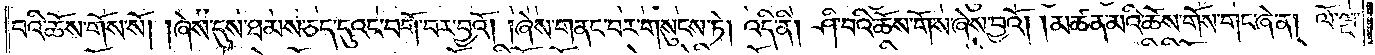བའི་ཆོས་གོས་སོ། །ཞེས་དུས་ཐམས་ཅད་དུའང་བགོ་བར་བྱའོ། །ཞེས་གནང་བར་གསུངས་ཏེ། འདི་ནི། ཤི་བའི་ཆོས་གོས་ཞེས་བྱའོ། །མཚན་མའི་ཆོས་གོས་གང་ཞེ་ན། ལོ་ལྔ་
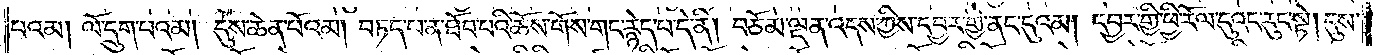པའམ། ལོ་དྲུག་པའམ། དུས་ཆེན་པོའམ། བཏད་པ་ན་ཐོབ་པའི་ཆོས་གོས་གང་རྙེད་པ་དེ་ནི། བཅོམ་ལྡན་འདས་ཀྱིས་དབྱར་གྱི་ནང་དུའམ། དབྱར་གྱི་ཕྱི་རོལ་དུའང་རུང་སྟེ། དུས་
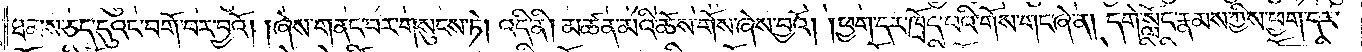ཐམས་ཅད་དུའང་བགོ་བར་བྱའོ། །ཞེས་གནང་བར་གསུངས་ཏེ། འདི་ནི། མཚན་མའི་ཆོས་གོས་ཞེས་བྱའོ། །ཕྱག་དར་ཁྲོད་པའི་གོས་གང་ཞེ་ན། དགེ་སློང་རྣམས་ཀྱིས་ཕྱག་དར་
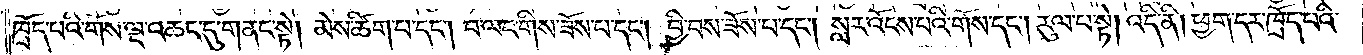ཁྲོད་པའི་གོས་ལྔ་འཆང་དུ་གནང་སྟེ། མེས་ཚིག་པ་དང༌། བ་ལང་གིས་ཟོས་པ་དང༌། བྱི་བས་ཟོས་པ་དང༌། སླར་འོངས་པའི་གོས་དང༌། རུལ་པ་སྟེ། འདི་ནི། ཕྱག་དར་ཁྲོད་པའི་
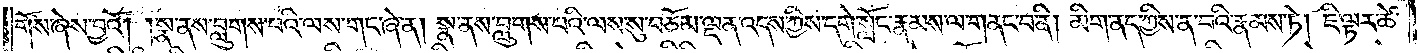གོས་ཞེས་བྱའོ། །སྣ་ནས་བླུགས་པའི་ལས་གང་ཞེ་ན། སྣ་ནས་བླུགས་པའི་ལས་སུ་བཅོམ་ལྡན་འདས་ཀྱིས་དགེ་སློང་རྣམས་ལ་གནང་བ་ནི། མིག་ནད་ཀྱིས་ན་བའི་རྣམས་ཏེ། ཇི་ལྟར་ཚེ་
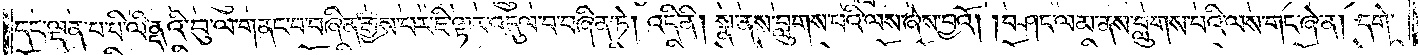དང་ལྡན་པ་པི་ལིནྡའི་བུ་ལ་གནང་བ་བཞིན་རྒྱས་པར་ཇི་ལྟར་འདུལ་བ་བཞིན་ཏེ། འདི་ནི། སྣ་ནས་བླུགས་པའི་ལས་ཞེས་བྱའོ། །བཤང་ལམ་ནས་བླུགས་པའི་ལས་གང་ཞེ་ན། དགེ་
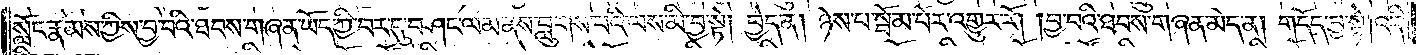སློང་རྣམས་ཀྱིས་བྱ་བའི་ཐབས་གཞན་ཡོད་ཀྱི་བར་དུ་བཤང་ལམ་ནས་བླུགས་པའི་ལས་མི་བྱ་སྟེ། བྱེད་ན། ཉེས་པ་སྦོམ་པོར་འགྱུར་རོ། །བྱ་བའི་ཐབས་གཞན་མེད་ན། གདོད་བྱ་སྟེ། འདི་
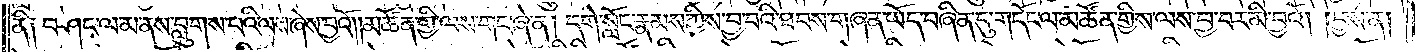ནི༑ བཤང་ལམ་ནས་བླུགས་པའི་ལས་ཞེས་བྱའོ༎མཚོན་གྱི་ལས་གང་ཞེ་ན། དགེ་སློང་རྣམས་ཀྱིས་བྱ་བའི་ཐབས་གཞན་ཡོད་བཞིན་དུ་གདོང་ལ་མཚོན་གྱིས་ལས་བྱ་བར་མི་བྱའོ། །བྱས་ན།
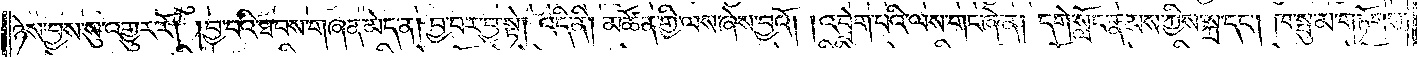ཉེས་བྱས་སུ་འགྱུར་རོ། །བྱ་བའི་ཐབས་གཞན་མེད་ན། བྱ་བར་བྱ་སྟེ། འདི་ནི། མཚོན་གྱི་ལས་ཞེས་བྱའོ། །འབྲེག་པའི་ལས་གང་ཞེ་ན། དགེ་སློང་རྣམས་ཀྱིས་སྐྲ་དང༌། ཁ་སྤུ་མ་གཏོགས་
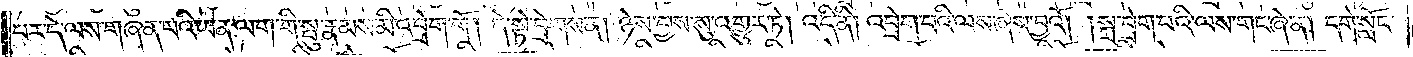པར་དེ་ལས་གཞན་པའི་ཡན་ལག་གི་སྤུ་རྣམས་མི་འབྲེག་གོ། དེ་སྟེ་བྲེགས་ན། ཉེས་བྱས་སུ་འགྱུར་ཏེ། འདི་ནི། འབྲེག་པའི་ལས་ཞེས་བྱའོ། །སྐྲ་བྲེག་པའི་ལས་གང་ཞེ་ན། དགེ་སློང་
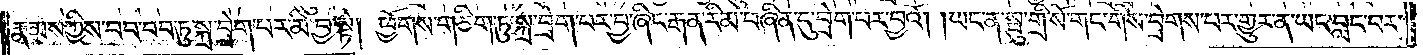རྣམས་ཀྱིས་བབ་བབ་ཏུ་སྐྲ་བྲེག་པར་མི་བྱ་སྟེ། ཕྱོགས་གཅིག་ཏུ་སྐྲ་བྲེག་པར་བྱ་ཞིང་རྒན་རིམ་བཞིན་དུ་བྲེག་པར་བྱའོ། །ཡང་ན་སྤུ་གྲི་སོ་གང་གིས་བྲེགས་པར་གྱུར་ན་ཡང་བླང་བར་
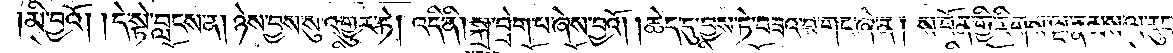མི་བྱའོ། །དེ་སྟེ་བླངས་ན། ཉེས་བྱས་སུ་འགྱུར་ཏེ། འདི་ནི། སྐྲ་བྲེག་པ་ཞེས་བྱའོ། །ཆེད་དུ་བྱས་ཏེ་བཟའ་བ་གང་ཞེ་ན། ས་བོན་གྱི་རིགས་ལྔ་རྣམས་ལ་རུང་
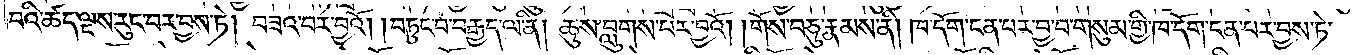བའི་ཚད་ལྔས་རུང་བར་བྱས་ཏེ། བཟའ་བར་བྱའོ། །བཏུང་བ་བརྒྱད་ལ་ནི། ཆུས་བླུགས་པར་བྱའོ། །གོས་བཅུ་རྣམས་ནི། ཁ་དོག་ངན་པར་བྱ་བ་གསུམ་གྱི་ཁ་དོག་ངན་པར་བྱས་ཏེ་
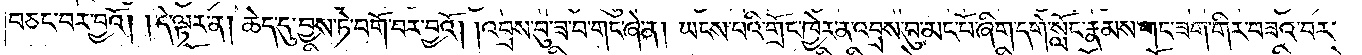བཅང་བར་བྱའོ། །དེ་ལྟར་ན། ཆེད་དུ་བྱས་ཏེ་བགོ་བར་བྱའོ། །འབྲས་བུ་ཟ་བ་གང་ཞེ་ན། ཡངས་པའི་གྲོང་ཁྱེར་ན་འབྲས་བུ་མང་པོ་ཞིག་དགེ་སློང་རྣམས་གང་ཟག་གིར་བཟའ་བར་
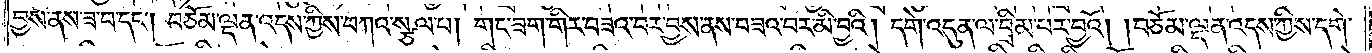བྱས་ནས་ཟ་བ་དང༌། བཅོམ་ལྡན་འདས་ཀྱིས་བཀའ་སྩལ་པ། གང་ཟག་གིར་བཟའ་བར་བྱས་ནས་བཟའ་བར་མི་བྱའི། དགེ་འདུན་ལ་བྲིམ་པར་བྱའོ། །བཅོམ་ལྡན་འདས་ཀྱིས་དགེ་
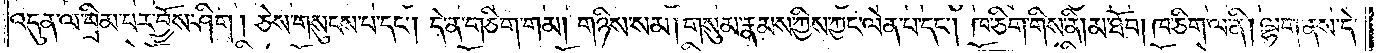འདུན་ལ་བྲིམ་པར་བྱོས་ཤིག །ཅེས་གསུངས་པ་དང༌། དེ་ན་གཅིག་གམ། གཉིས་སམ། གསུམ་རྣམས་ཀྱིས་ཀྱང་ལེན་པ་དང༌། ཁ་ཅིག་གིས་ནི། མ་ཐོབ། ཁ་ཅིག་ལ་ནི། ལྷག་ནས་དེ་
